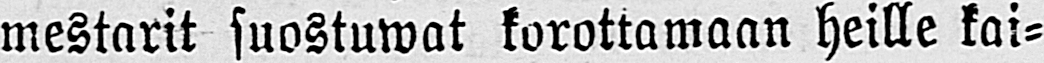mestarit suostumat korottamaan heille kai-
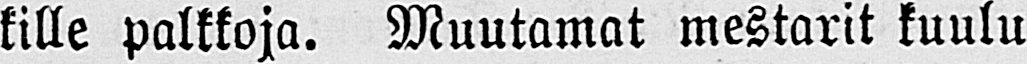kille palkkoja. Muutamat mestarit kuulu-
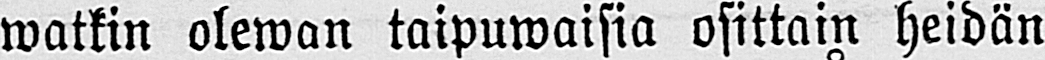watkin olewan taipuwaisia osittain heidän
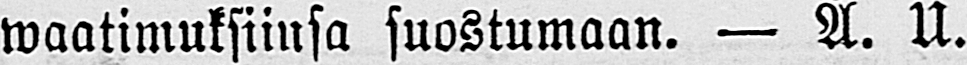waatimuksiinsa suostumaan. — Å. U.
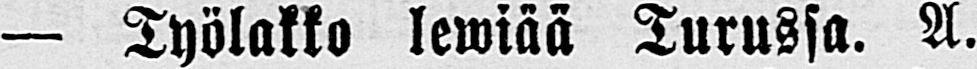— Työlakko lerviää Turussa. Å.
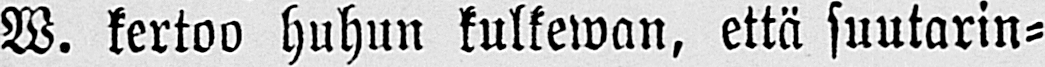W. kertoo huhun kulkeman, että suutarin-
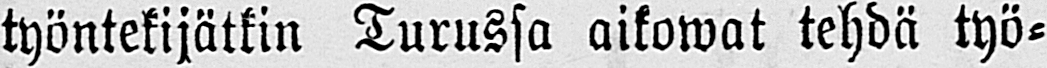työntekijätkin Turussa aikowat tehdä työ-
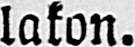lakon.
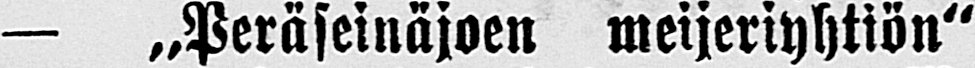— „Peräseinäjoen meijeriyhtiön"
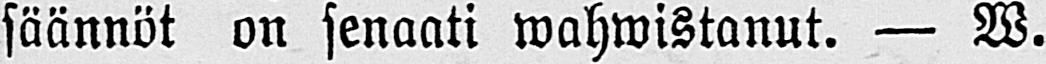säännöt on senaati wahwistanut. — W.
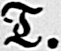T.
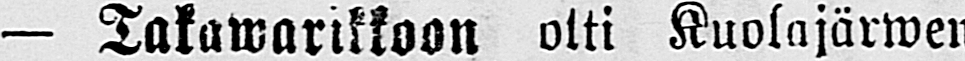— Takawarikkoon otti Kuolajärwen
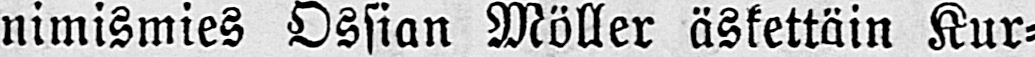nimismies Ossian Möller äskettäin Kur-
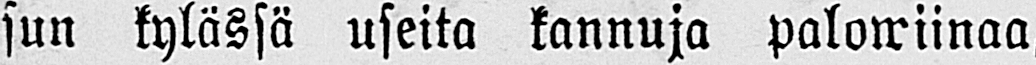sun kylässä useita kannuja palowiinaa,
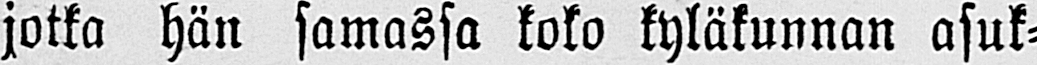jotka hän samassa koko kyläkunnan asuk-
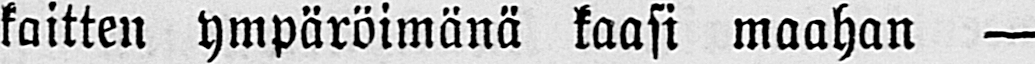kaitten ympäröimänä kaasi maahan —
